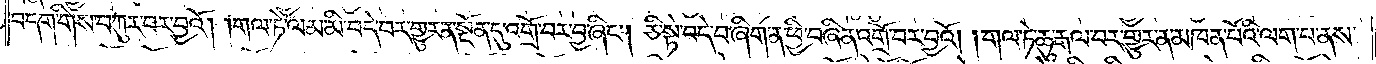བདག་གིས་བཀུར་བར་བྱའོ། །གལ་ཏེ་ལམ་མི་བདེ་བར་གྱུར་ན་སྔོན་དུ་འགྲོ་བར་བྱ་ཞིང༌། ཅི་སྟེ་བདེ་བ་ཞིག་ན་ཕྱི་བཞིན་འགྲོ་བར་བྱའོ། །གལ་ཏེ་ཆུ་རྒལ་བར་གྱུར་ན་མཁན་པོའི་ལག་པ་ནས་
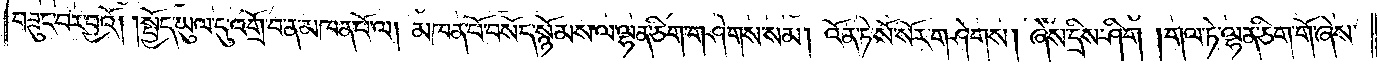བཟུང་བར་བྱའོ། །སྤྱོད་ཡུལ་དུ་འགྲོ་བ་ན་མཁན་པོ་ལ། མཁན་པོ་བསོད་སྙོམས་ལ་ལྷན་ཅིག་གཤེགས་སམ། འོན་ཏེ་སོ་སོར་གཤེགས། ཞེས་དྲིས་ཤིག །གལ་ཏེ་ལྷན་ཅིག་གོ་ཞེས་
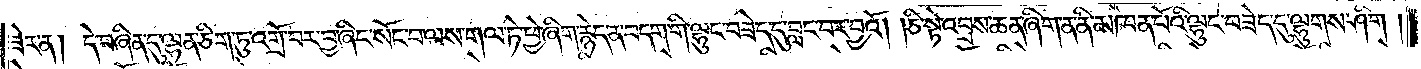ཟེར་ན། དེ་བཞིན་དུ་ལྷན་ཅིག་ཏུ་འགྲོ་བར་བྱ་ཞིང་སོང་བ་ལས་གལ་ཏེ་ཕྱེ་ཞིག་རྙེད་ན་བདག་གི་ལྷུང་བཟེད་དུ་བླང་བར་བྱའོ། །ཅི་སྟེ་འབྲས་ཆན་ཞིག་ན་ནི་མཁན་པོའི་ལྷུང་བཟེད་དུ་ལྷུགས་ཤིག །
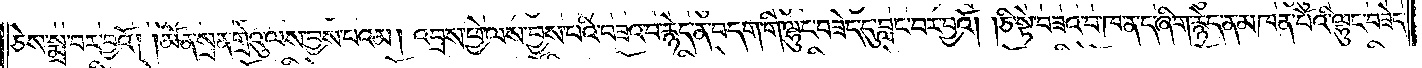ཅེས་སྨྲ་བར་བྱའོ། །མོན་སྲན་གྲེའུ་ལས་བྱས་པའམ། འབྲས་ཕྱེ་ལས་བྱས་པའི་བཟའ་བ་རྙེད་ན་བདག་གི་ལྷུང་བཟེད་དུ་བླང་བར་བྱའོ། །ཅི་སྟེ་བཟའ་བ་ཁ་ན་ད་ཞིག་རྙེད་ན་མཁན་པོའི་ལྷུང་བཟེད་
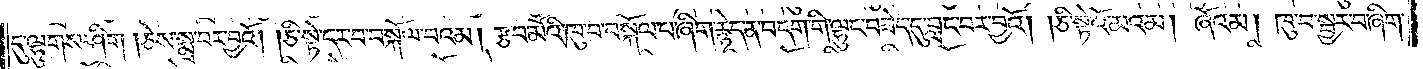དུ་ལྷུགས་ཤིག །ཅེས་སྨྲ་བར་བྱའོ། །ཅི་སྟེ་དར་བ་བསྐོལ་བའམ། རྩབ་མོའི་ཁུ་བ་བསྐོལ་པ་ཞིག་རྙེད་ན་བདག་གི་ལྷུང་བཟེད་དུ་བླང་བར་བྱའོ། །ཅི་སྟེ་འོ་མའམ། ཞོའམ། ཁུ་བ་སྦྱར་བ་ཞིག་
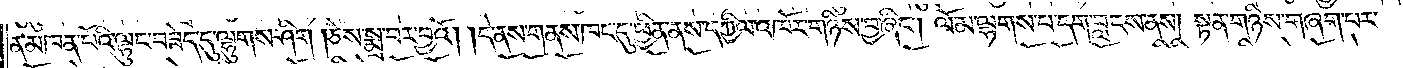ན་མཁན་པོའི་ལྷུང་བཟེད་དུ་ལྷུགས་ཤིག །ཅེས་སྨྲ་བར་བྱའོ། །དེ་ནས་གནས་ཁང་དུ་ཕྱིན་ནས་དཀྱིལ་འཁོར་གཉིས་བྱ་ཞིང༌། ལོ་མ་ལྷགས་པ་དག་བླངས་ནས། སྟན་གཉིས་གཞག་པར་
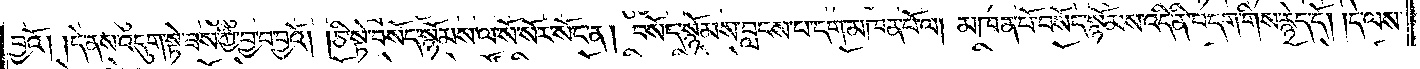བྱའོ། །དེ་ནས་འདུག་སྟེ་ཟས་ཀྱི་བྱ་བ་བྱའོ། །ཅི་སྟེ་བསོད་སྙོམས་ལ་སོ་སོར་སོང་ན། བསོད་སྙོམས་བླངས་པ་དག་མཁན་པོ་ལ། མཁན་པོ་བསོད་སྙོམས་འདི་ནི་བདག་གིས་རྙེད་དོ། །དེ་ལས་
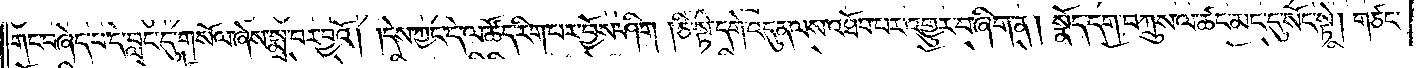གང་བཞེད་པ་དེ་བླང་དུ་གསོལ་ཞེས་སྨྲ་བར་བྱའོ། །དེས་ཀྱང་དེ་ལ་ཚོད་རིག་པར་བྱོས་ཤིག །ཅི་སྟེ་དགེ་འདུན་ལས་འཐོབ་པར་འགྱུར་བ་ཞིག་ན། སྣོད་དག་བཀྲུས་ལ་ཚང་མང་དུ་སོང་སྟེ། གཙང་
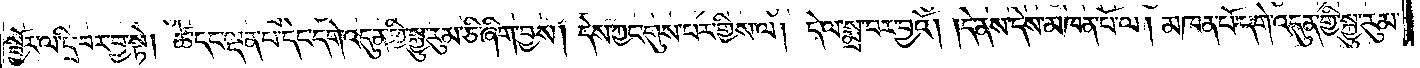སྦྱོར་ལ་དྲི་བར་བྱ་སྟེ། ཚེ་དང་ལྡན་པ་དེང་དགེ་འདུན་གྱི་སྐྱུ་རུམ་ཅི་ཞིག་བྱས། དེས་ཀྱང་གུས་པར་གྱིས་ལ། དེ་ལ་སྨྲ་བར་བྱའོ། །དེ་ནས་དེས་མཁན་པོ་ལ། མཁན་པོ་དགེ་འདུན་གྱི་སྐྱུ་རུམ་
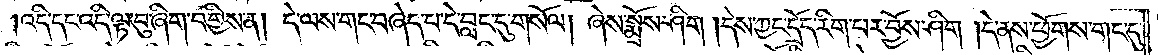འདི་དང་འདི་ལྟ་བུ་ཞིག་བགྱིས་ན། དེ་ལས་གང་བཞེད་པ་དེ་བླང་དུ་གསོལ། ཞེས་སྨྲོས་ཤིག །དེས་ཀྱང་དྲོད་རིག་པར་བྱོས་ཤིག །དེ་ནས་ཕྱོགས་གང་དུ་
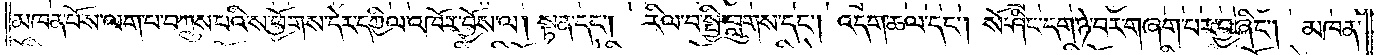མཁན་པོས་ལག་པ་བཀྲུས་པའི་ས་ཕྱོགས་དེར་དཀྱིལ་འཁོར་བྱོས་ལ། སྟན་དང༌། རིལ་བ་སྤྱི་བླུགས་དང༌། འདག་ཆལ་དང༌། སོ་ཤིང་དག་ཉེ་བར་གཞག་པར་བྱ་ཞིང༌། མཁན་
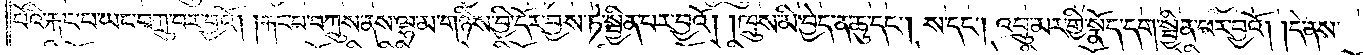པོའི་རྐང་པ་ཡང་བཀྲུ་བར་བྱའོ། །རྐང་པ་བཀྲུས་ནས་ལྷམ་གཉིས་བྱི་དོར་བྱས་ཏེ་སྦྱིན་པར་བྱའོ། །ཁྲུས་མི་བྱེད་ན་ཆུ་དང༌། ས་དང༌། འབྲུ་མར་གྱི་སྣོད་དག་སྦྱིན་པར་བྱའོ། །དེ་ནས་
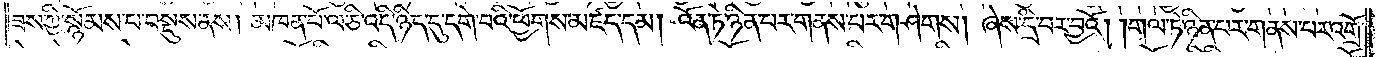ཟས་ཀྱི་སྙོམས་པ་བསྡུས་ནས། མཁན་པོ་ལ་ཅི་འདི་ཉིད་དུ་དགེ་བའི་ཕྱོགས་མཛད་དམ། འོན་ཏེ་ཉིན་པར་གནས་པར་གཤེགས། ཞེས་དྲི་བར་བྱའོ། །གལ་ཏེ་ཉིན་པར་གནས་པར་འགྲོ་
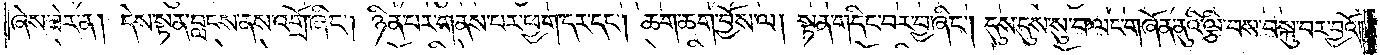ཞེས་ཟེར་ན། དེས་སྟན་བླངས་ནས་འགྲོ་ཞིང༌། ཉིན་པར་གནས་པར་ཕྱག་དར་དང༌། ཆག་ཆག་བྱོས་ལ། སྟན་གདིང་བར་བྱ་ཞིང༌། དུས་དུས་སུ་བ་ལང་གཞོན་ནུའི་ལྕི་བས་བསྐུ་བར་བྱའོ། །
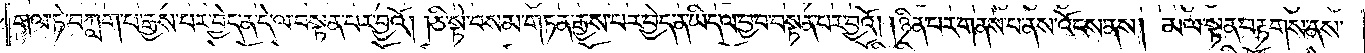གལ་ཏེ་བཀླག་པ་རྒྱས་པར་བྱེད་ན་དེ་ལ་བསྟན་པར་བྱའོ། །ཅི་སྟེ་བསམ་གཏན་རྒྱས་པར་བྱེད་ན་ཡིད་ལ་བྱ་བ་བསྟན་པར་བྱའོ། །ཉིན་པར་གནས་པ་ནས་འོངས་ནས། མལ་སྟན་བརྟགས་ནས་
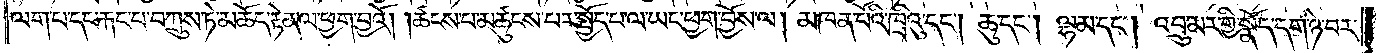ལག་པ་དང་རྐང་པ་བཀྲུས་ཏེ་མཆོད་རྟེན་ལ་ཕྱག་བྱའོ། །ཚངས་པ་མཚུངས་པར་སྤྱོད་པ་ལ་ཡང་ཕྱག་བྱོས་ལ། མཁན་པོའི་ཁྲིའུ་དང༌། ཆུ་དང༌། ལྷམ་དང༌། འབྲུ་མར་གྱི་སྣོད་དག་ཉེ་བར་
